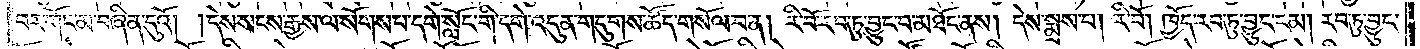བར་གོང་མ་བཞིན་དུའོ། །དེས་སངས་རྒྱས་ལ་སོགས་པ་དགེ་སློང་གི་དགེ་འདུན་གདུགས་ཚོད་གསོལ་བ་ན། རི་བོ་རབ་ཏུ་བྱུང་བ་མཐོང་ནས། དེས་སྨྲས་པ། རི་བོ། ཁྱོད་རབ་ཏུ་བྱུང་ངམ། རབ་ཏུ་བྱུང་
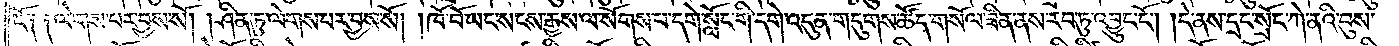ངོ༑ ༑ལེགས་པར་བྱས་སོ། །ཤིན་ཏུ་ལེགས་པར་བྱས་སོ། །ཁོ་བོ་ཡང་སངས་རྒྱས་ལ་སོགས་པ་དགེ་སློང་གི་དགེ་འདུན་གདུགས་ཚོད་གསོལ་ཟིན་ནས་རབ་ཏུ་འབྱུང་ངོ༌། །དེ་ནས་དྲང་སྲོང་ཀེ་ནའི་བུས་
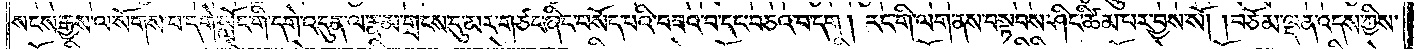སངས་རྒྱས་ལ་སོགས་པ་དགེ་སློང་གི་དགེ་འདུན་ལ་རྣམ་གྲངས་དུ་མར་གཙང་ཞིང་བསོད་པའི་བཟའ་བ་དང་བཅའ་པ་དག །རང་གི་ལག་ནས་བསྟབས་ཤིང་ཚིམ་པར་བྱས་སོ། །བཅོམ་ལྡན་འདས་ཀྱིས་
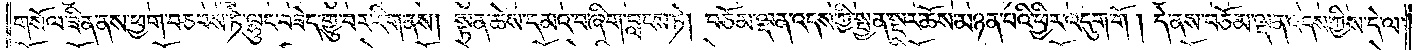གསོལ་ཟིན་ནས་ཕྱག་བཅབས་ཏེ་ལྷུང་བཟེད་གྱུ་བར་རིག་ནས། སྟན་ཆེས་དམའ་བ་ཞིག་བླངས་ཏེ། བཅོམ་ལྡན་འདས་ཀྱི་སྤྱན་སྔར་ཆོས་མཉན་པའི་ཕྱིར་འདུག་གོ །དེ་ནས་བཅོམ་ལྡན་འདས་ཀྱིས་དེ་ལ་
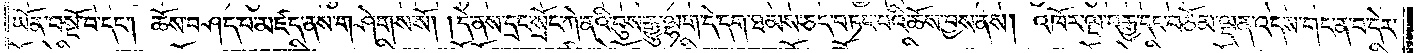ཡོན་བསྔོ་བ་དང༌། ཆོས་བཤད་པ་མཛད་ནས་གཤེགས་སོ། །དེ་ནས་དྲང་སྲོང་ཀེ་ནའི་བུས་རྒྱུ་ལྷག་དེ་དག་ཐམས་ཅད་བཏང་བའི་ཆོས་བྱས་ནས། འཁོར་ལྔ་བརྒྱ་དང་བཅོམ་ལྡན་འདས་གང་ན་བ་དེར་
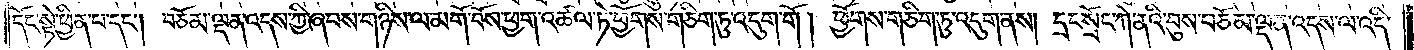དོང་སྟེ་ཕྱིན་པ་དང༌། བཅོམ་ལྡན་འདས་ཀྱི་ཞབས་གཉིས་ལ་མགོ་བོས་ཕྱག་འཚལ་ཏེ་ཕྱོགས་གཅིག་ཏུ་འདུག་གོ །ཕྱོགས་གཅིག་ཏུ་འདུག་ནས། དྲང་སྲོང་ཀེ་ནའི་བུས་བཅོམ་ལྡན་འདས་ལ་འདི་
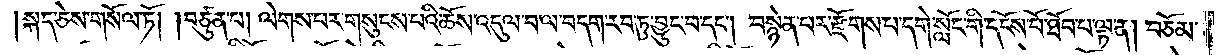སྐད་ཅེས་གསོལ་ཏོ། །བཙུན་པ། ལེགས་པར་གསུངས་པའི་ཆོས་འདུལ་བ་ལ་བདག་རབ་ཏུ་བྱུང་བ་དང༌། བསྙེན་པར་རྫོགས་པ་དགེ་སློང་གི་དངོས་པོ་ཐོབ་པ་ལྟ་ན། བཅོམ་
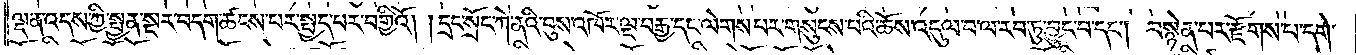ལྡན་འདས་ཀྱི་སྤྱན་སྔར་བདག་ཚངས་པར་སྤྱད་པར་བགྱིའོ། །དྲང་སྲོང་ཀེ་ནའི་བུས་འཁོར་ལྔ་བརྒྱ་དང་ལེགས་པར་གསུངས་པའི་ཆོས་འདུལ་བ་ལ་རབ་ཏུ་བྱུང་བ་དང༌། བསྙེན་པར་རྫོགས་པ་དགེ་
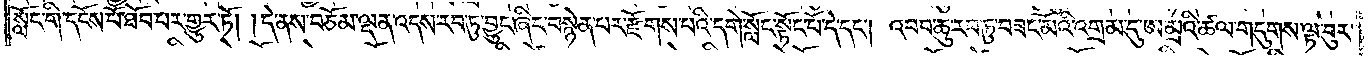སློང་གི་དངོས་པོ་ཐོབ་པར་གྱུར་ཏོ། དེ་ནས་བཅོམ་ལྡན་འདས་རབ་ཏུ་བྱུང་ཞིང་བསྙེན་པར་རྫོགས་པའི་དགེ་སློང་སྟོང་པོ་དེ་དང༌། འབབ་ཆུ་རབ་ཏུ་བཟང་མོའི་འགྲམ་དུ་ཨ་མྲའི་ཚལ་གདུགས་ལྟ་བུར་
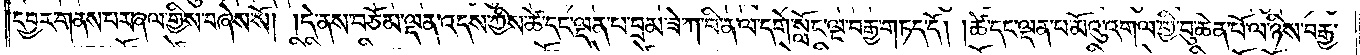དབྱར་གནས་པར་ཞལ་གྱིས་བཞེས་སོ། །དེ་ནས་བཅོམ་ལྡན་འདས་ཀྱིས་ཚེ་དང་ལྡན་པ་བྲམ་ཟེ་ཀ་བི་ན་ལ་དགེ་སློང་ལྔ་བརྒྱ་གཏད་དོ། །ཚེ་དང་ལྡན་པ་མོའུ་འགལ་གྱི་བུ་ཆེན་པོ་ལ་ཉིས་བརྒྱ་
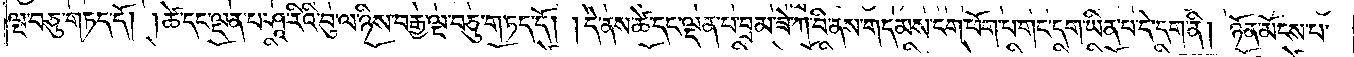ལྔ་བཅུ་གཏད་དོ། །ཚེ་དང་ལྡན་པ་ཤཱ་རིའི་བུ་ལ་ཉིས་བརྒྱ་ལྔ་བཅུ་གཏད་དོ། །དེ་ནས་ཚེ་དང་ལྡན་པ་བྲམ་ཟེ་ཀ་བི་ནས་གདམས་ངག་ཕོག་པ་གང་དག་ཡིན་པ་དེ་དག་ནི། ཉོན་མོངས་པ་
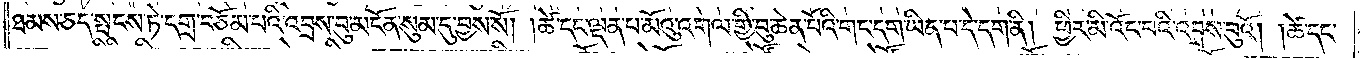ཐམས་ཅད་སྤངས་ཏེ་དགྲ་བཅོམ་པའི་འབྲས་བུ་མངོན་སུམ་དུ་བྱས་སོ། །ཚེ་དང་ལྡན་པ་མོའུ་འགལ་གྱི་བུ་ཆེན་པོའི་གང་དག་ཡིན་པ་དེ་དག་ནི། ཕྱིར་མི་འོང་བའི་འབྲས་བུའོ། །ཚེ་དང་
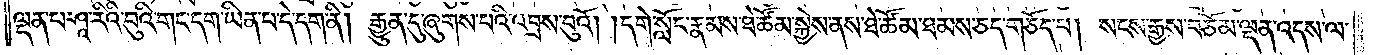ལྡན་པ་ཤཱ་རིའི་བུའི་གང་དག་ཡིན་པ་དེ་དག་ནི། རྒྱུན་དུ་ཞུགས་པའི་འབྲས་བུའོ། །དགེ་སློང་རྣམས་ཐེ་ཚོམ་སྐྱེས་ནས་ཐེ་ཚོམ་ཐམས་ཅད་གཅོད་པ། སངས་རྒྱས་བཅོམ་ལྡན་འདས་ལ་
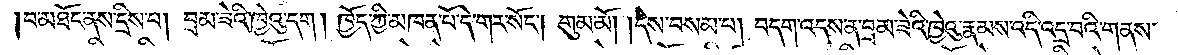།བ་མཐོང་ནས་དྲིས་པ། བྲམ་ཟེའི་ཁྱེའུ་དག །ཁྱོད་ཀྱི་མཁན་པོ་དེ་གར་སོང༌། གུམ་མོ། །དེས་བསམ་པ། བདག་འདས་ན་བྲམ་ཟེའི་ཁྱེའུ་རྣམས་འདི་འདྲ་བའི་གནས་
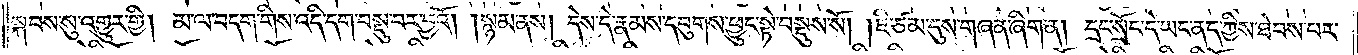སྐབས་སུ་འགྱུར་གྱི། མ་ལ་བདག་གིས་འདི་དག་བསྡུ་བར་བྱའོ། །སྙམ་ནས། དེས་དེ་རྣམས་དབུགས་ཕྱུང་སྟེ་བསྡུས་སོ། །ཇི་ཙམ་དུས་གཞན་ཞིག་ན། དྲང་སྲོང་དེ་ཡང་ནད་ཀྱིས་ཐེབས་པར་
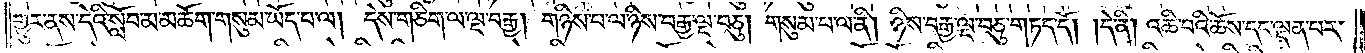གྱུར་ནས་དེའི་སློབ་མ་མཆོག་གསུམ་ཡོད་པ་ལ། དེས་གཅིག་ལ་ལྔ་བརྒྱ། གཉིས་པ་ལ་ཉིས་བརྒྱ་ལྔ་བཅུ། གསུམ་པ་ལ་ནི། ཉིས་བརྒྱ་ལྔ་བཅུ་གཏད་དོ། །དེ་ནི། འཆི་བའི་ཆོས་དང་ལྡན་པར་
